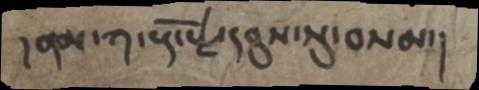། ནམ་ཀ་རྡོ་རྗེ་དབུས་སུ་བསམ་།
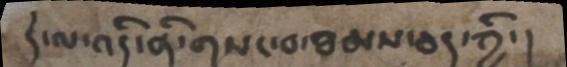དེ་ལ་འདི་ནི་གསང་བ་ཐམས་ཅད་ཀྱི་།
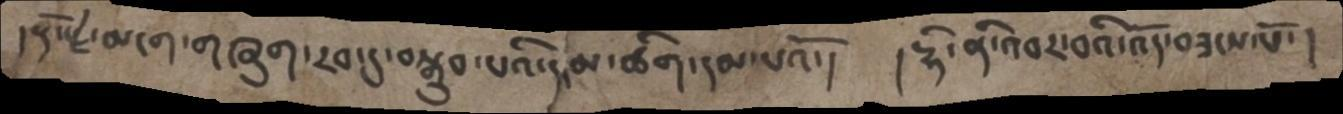།རྡོ་རྗེ་མངག་གཞུག་རབ་དུ་བསྒྲུབ་པའི་དམ་ཚིག་དམ་པའོ་།   ། དྷི་ནི་འབར་བའི་འོད་བཟངས་པོ་།
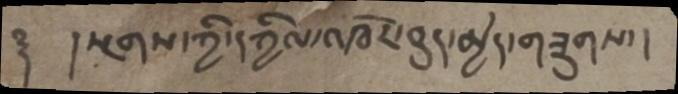༈  །སྔགས་ཀྱི་དཀྱིལ་འཁོར་བུད་མྱེད་གཟུགས་།
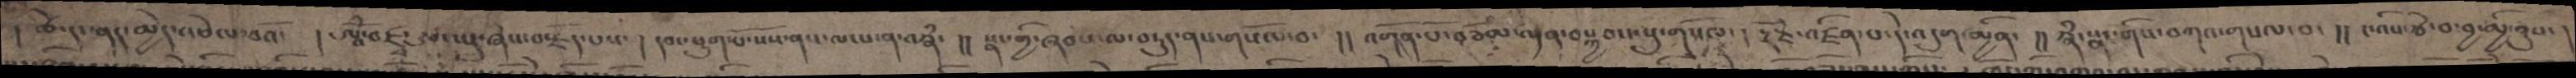། ཚེ་དང་ནད་མྱེད་འཕེལ་བའོ་  ། ཨཱོྃ་བཛྲ་ཨ་ཡུ་ཞེས་བརྗོད་པས་ ། དབང་ཕྱུག་སོ་སོས་ནས་ལངས་ན་བརྣཾ་ །། སྣང་ཀྱི་ཞབས་ལ་བཏུད་ནས་གསོལ་བ་ །། འགོན་པོ་བཅོམ་ལྡན་བསྐྱབས་སུ་གསོལ་ ། རྡོ་རྗེ་འཛིན་པ་དེ་འདུག་མྱིན་ །། རྣཾ་སྣང་གིས་བཀའ་གསལ་བ་ །། ང་འིས་རྩེ་བ་བྱ་མྱི་ནུས་ །
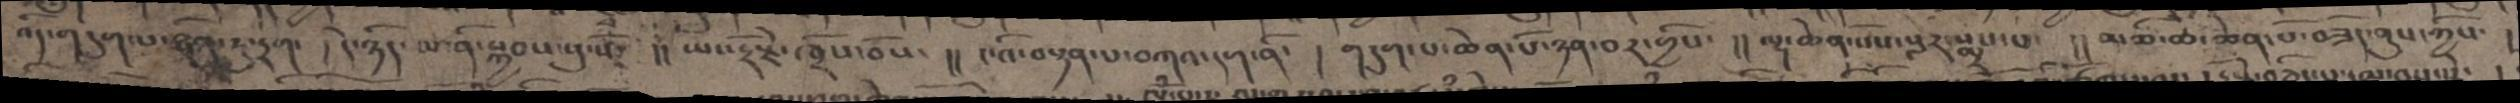འདི་གདུག་པ་ཤིན་ཏུ་དྲག་ །དེ་ཉིད་མ་ནི་སྐྱབས་སུ་སོ་ །། ཡང་རྡོ་རྗེ་ཁྲོས་བསོ་ །། ང་འི་བསྟན་པ་བཀའ་དག་ནི་ །གདུག་པ་ཆེན་པོ་ཉན་པར་གྱིས་ །།ལྷ་ཆེན་པོས་སླར་སྨྲས་པ་ །། མཆི་ཆ་ཆེན་པོ་བཟོད་ནུས་ཀྱིས་ །
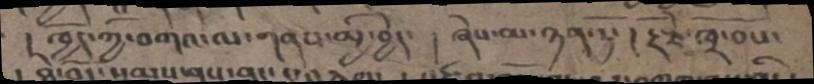། ཁྱོད་ཀྱི་བགའ་ལ་གནས་མྱི་བྱེད་ །ཞེས་མ་ཉན་ཏོ་ ། རྡོ་རྗེ་ཁྲོ་བོས་
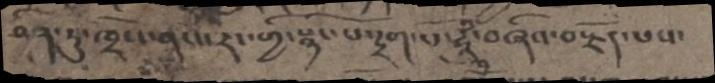ཤིན་ཏུ་ཁྲོས་ནས་རང་གྱི་སྙིང་པོ་དྲག་པོ་ཧཱུྃ བཞིའ་བརྗོད་པས་
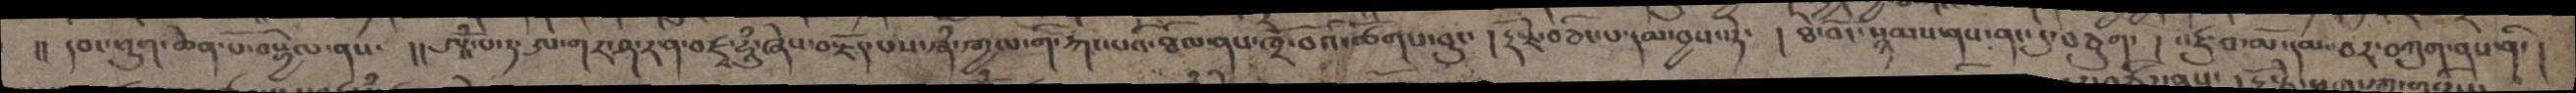།། དབང་ཕྱུག་ཆེན་པོ་བསྐྱེལ་ནས་ །། ཨཱོྃ་པ་ཏ་ཨ་གར་ཤ་ར་ན་བཛྭ་ཧཱུྃ་ཞེས་བརྗོད་པས་རྣཾ་རྒྱལ་གི་རྐང་པའི་ཐིལ་ནས་ཁྲོ་བོའི་ཚོགས་བྱུང་ །རྡོ་རྗེ་བཅིང་པ་དམ་བྱས་སྟེ་ །ཐེ་བོང་སྙམས་ནས་ནང་དུ་བཅུག་ ། འཛུབ་མོ་དམ་ཅར་བཀུག་ནས་ནི་ །
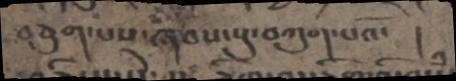བཅུག་པས་ཞབས་སུ་བཀུག་པའོ་ །
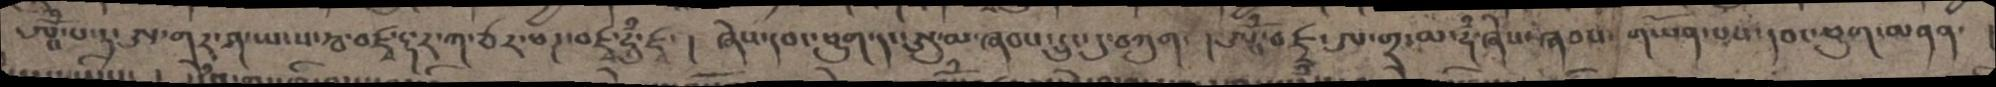ཨཱོྃ་པ་ར་ཨ་གར་ཤ་ཡ་ས་རྦ་བཛྭ་དྷ་ར་ཀ་ཙར་ཕཊ་བཛྭ་ཧཱུྃ་ཛྭ་།  ཞེས་དབང་ཕྱུག་དང་ཨུ་མ་ཞབས་དྲུང་དུ་བཀུག་ །ཨཱོྃ་བཛྲ་ཨ་གྲ་མ་ཧྃ་ཞེས་ཞབས་གཡོན་པས་དབང་ཕྱུག་མནན་།
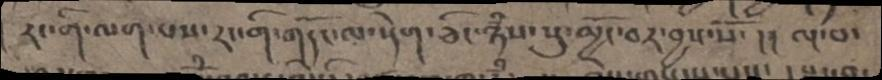རང་གི་ལག་པས་རང་གི་གདོང་ལ་སྡེག་ཅིང་ཉཾས་སུ་མྱོང་བར་བྱས་སོ་ །། ལྔ་པ་
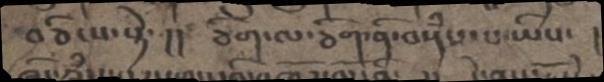བཅིངས་སྟེ་ །། ཅིག་ལ་ཅིག་ནི་བསྡོཾས་པ་ཡིས་ །
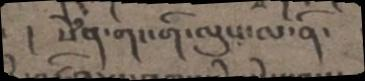། སེཾན་གང་གི་ལུས་ལ་ནི་
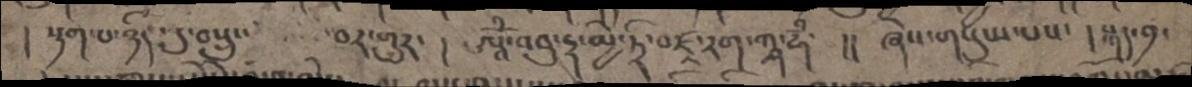། རྟག་པ་ཉིད་དུ་བསྲུང་   བར་གྱུར་ ། ཨཱོྃ་འབུ་དྷ་མྱེ་ཏྲི་བཛྲ་རག་ཀྴ་ཧྃ་ །། ཞེས་གསུངས་པས་ ། སྐད་༡་
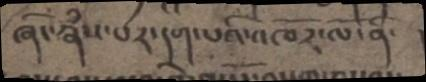ཞིང་རྣཾས་པར་དག་པའི་འཁོར་ལོ་ནི་
